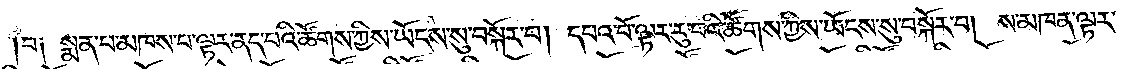བ༑ སྨན་པ་མཁས་པ་ལྟར་ནད་པའི་ཚོགས་ཀྱིས་ཡོངས་སུ་བསྐོར་བ། དཔའ་བོ་ལྟར་རུ་བའི་ཚོགས་ཀྱིས་ཡོངས་སུ་བསྐོར་བ། ས་མཁན་ལྟར་
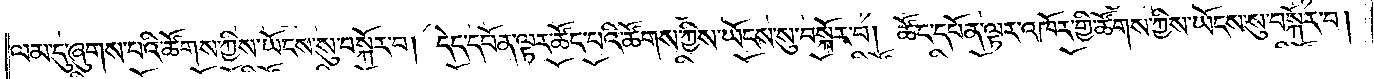ལམ་དུ་ཞུགས་པའི་ཚོགས་ཀྱིས་ཡོངས་སུ་བསྐོར་བ། དེད་དཔོན་ལྟར་ཚོང་པའི་ཚོགས་ཀྱིས་ཡོངས་སུ་བསྐོར་བ། ཚོང་དཔོན་ལྟར་འཁོར་གྱི་ཚོགས་ཀྱིས་ཡོངས་སུ་བསྐོར་བ།
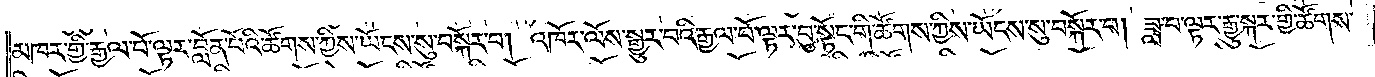མཁར་གྱི་རྒྱལ་པོ་ལྟར་བློན་པོའི་ཚོགས་ཀྱིས་ཡོངས་སུ་བསྐོར་བ། འཁོར་ལོས་སྒྱུར་བའི་རྒྱལ་པོ་ལྟར་བུ་སྟོང་གི་ཚོགས་ཀྱིས་ཡོངས་སུ་བསྐོར་བ། ཟླ་བ་ལྟར་རྒྱུ་སྐར་གྱི་ཚོགས་
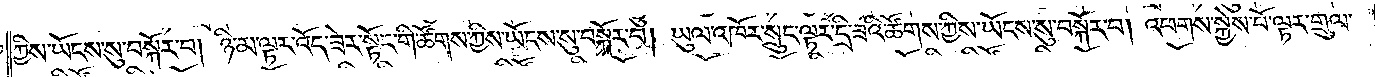ཀྱིས་ཡོངས་སུ་བསྐོར་བ། ཉི་མ་ལྟར་འོད་ཟེར་སྟོང་གི་ཚོགས་ཀྱིས་ཡོངས་སུ་བསྐོར་བ། ཡུལ་འཁོར་སྲུང་ལྟར་དྲི་ཟའི་ཚོགས་ཀྱིས་ཡོངས་སུ་བསྐོར་བ། འཕགས་སྐྱེས་པོ་ལྟར་གྲུལ་
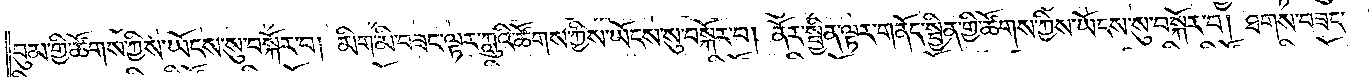བུམ་གྱི་ཚོགས་ཀྱིས་ཡོངས་སུ་བསྐོར་བ། མིག་མི་བཟང་ལྟར་ཀླུའི་ཚོགས་ཀྱིས་ཡོངས་སུ་བསྐོར་བ། ནོར་སྦྱིན་ལྟར་གནོད་སྦྱིན་གྱི་ཚོགས་ཀྱིས་ཡོངས་སུ་བསྐོར་བ། ཐགས་བཟང་
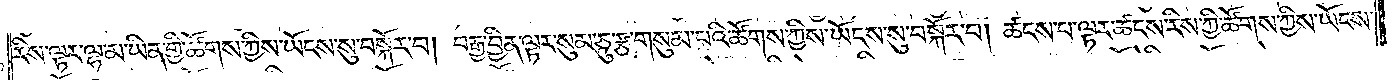རིས་ལྟར་ལྷ་མ་ཡིན་གྱི་ཚོགས་ཀྱིས་ཡོངས་སུ་བསྐོར་བ། བརྒྱ་བྱིན་ལྟར་སུམ་ཅུ་རྩ་གསུམ་པའི་ཚོགས་ཀྱིས་ཡོངས་སུ་བསྐོར་བ། ཚངས་པ་ལྟར་ཚངས་རིས་ཀྱི་ཚོགས་ཀྱིས་ཡོངས་
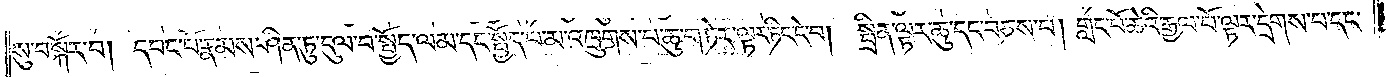སུ་བསྐོར་བ། དབང་པོ་རྣམས་ཤིན་ཏུ་དུལ་བ་སྤྱོད་ལམ་དང་སྤྱོད་པ་མ་འཁྲུགས་པ་ཆུ་གཏེར་ལྟར་ཏིང་ངེ་བ། སྤྲིན་ལྟར་ཆུ་དང་བཅས་པ། གླང་པོ་ཆེའི་རྒྱལ་པོ་ལྟར་དྲེགས་པ་དང་
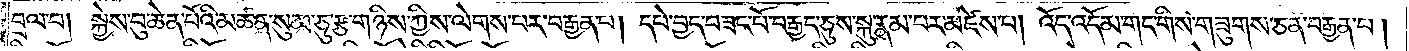བྲལ་བ། སྐྱེས་བུ་ཆེན་པོའི་མཚན་སུམ་ཅུ་རྩ་གཉིས་ཀྱིས་ལེགས་པར་བརྒྱན་པ། དཔེ་བྱད་བཟང་པོ་བརྒྱད་ཅུས་སྐུ་རྣམ་པར་མཛེས་པ། འོད་འདོམ་གང་གིས་གཟུགས་ཅན་བརྒྱན་པ།
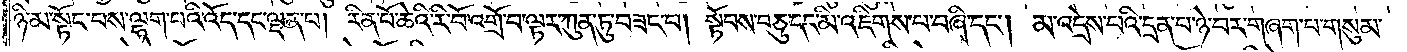ཉི་མ་སྟོང་བས་ལྷག་པའི་འོད་དང་ལྡན་པ། རིན་པོ་ཆེའི་རི་བོ་འགྲོ་བ་ལྟར་ཀུན་ཏུ་བཟང་བ། སྟོབས་བཅུ་དང་མི་འཇིགས་པ་བཞི་དང༌། མ་འདྲེས་པའི་དྲན་པ་ཉེ་བར་གཞག་པ་གསུམ་
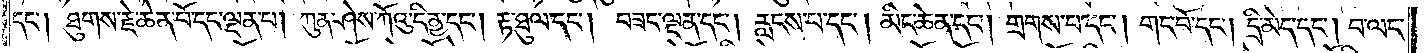དང༌། ཐུགས་རྗེ་ཆེན་པོ་དང་ལྡན་པ། ཀུན་ཤེས་ཀོའུ་དི་ནྱ་དང༌། རྟ་ཐུལ་དང༌། བཟང་ལྡན་དང༌། རླངས་པ་དང༌། མིང་ཆེན་དང༌། གྲགས་པ་དང༌། གང་བོ་དང༌། དྲི་མེད་དང༌། བ་ལང་
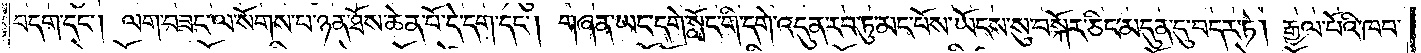བདག་དང༌། ལག་བཟང་ལ་སོགས་པ་ཉན་ཐོས་ཆེན་པོ་དེ་དག་དང༌། གཞན་ཡང་དགེ་སློང་གི་དགེ་འདུན་རབ་ཏུ་མང་པོས་ཡོངས་སུ་བསྐོར་ཅིང་མདུན་དུ་བདར་ཏེ། རྒྱལ་པོའི་ཁབ་
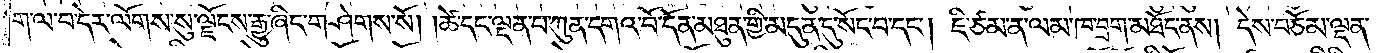ག་ལ་བ་དེར་ལོགས་སུ་ལྗོངས་རྒྱུ་ཞིང་གཤེགས་སོ། །ཚེ་དང་ལྡན་པ་ཀུན་དགའ་བོ་དོན་མཐུན་གྱི་མདུན་དུ་སོང་བ་དང༌། ཇི་ཙམ་ན་ལམ་ཁ་བྲག་མཐོང་ནས། དེས་བཅོམ་ལྡན་
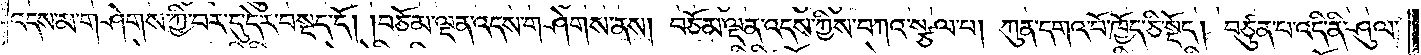འདས་མ་གཤེགས་ཀྱི་བར་དུ་དེར་བསྡད་དོ། །བཅོམ་ལྡན་འདས་གཤེགས་ནས། བཅོམ་ལྡན་འདས་ཀྱིས་བཀའ་སྩལ་པ། ཀུན་དགའ་བོ་ཁྱོད་ཅི་སྡོད། བཙུན་པ་འདི་ནི་ཤུལ་
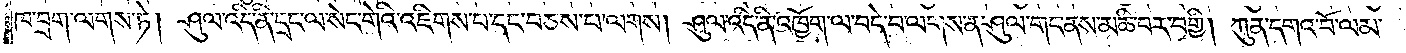ཁ་བྲག་ལགས་ཏེ། ཤུལ་འདི་ནི་དྲང་ལ་སེང་གེའི་འཇིགས་པ་དང་བཅས་པ་ལགས། ཤུལ་འདི་ནི་འཁྱོག་ལ་བདེ་བ་ལགས་ན་ཤུལ་གང་ནས་མཆི་བར་བགྱི། ཀུན་དགའ་བོ་ལམ་
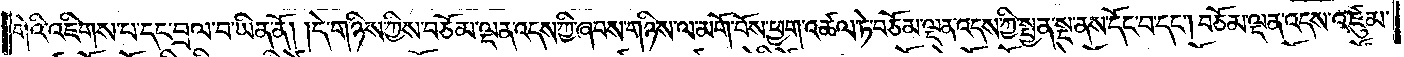གེའི་འཇིགས་པ་དང་བྲལ་བ་ཡིན་ནོ། །དེ་གཉིས་ཀྱིས་བཅོམ་ལྡན་འདས་ཀྱི་ཞབས་གཉིས་ལ་མགོ་བོས་ཕྱག་འཚལ་ཏེ་བཅོམ་ལྡན་འདས་ཀྱི་སྤྱན་སྔ་ནས་དོང་བ་དང༌། བཅོམ་ལྡན་འདས་འཛུམ་
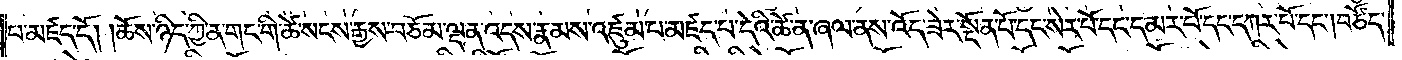པ་མཛད་དོ། །ཆོས་ཉིད་ཀྱི་ན་གང་གི་ཚེ་སངས་རྒྱས་བཅོམ་ལྡན་འདས་རྣམས་འཛུམ་པ་མཛད་པ་དེའི་ཚེ་ན་ཞལ་ནས་འོད་ཟེར་སྔོན་པོ་དང་སེར་པོ་དང་དམར་པོ་དང་དཀར་པོ་དང༌། བཙོད་
